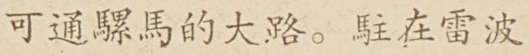可通騾馬的大路。駐在雷波
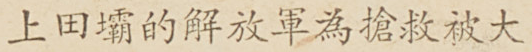上田壩的解放軍為搶救被大
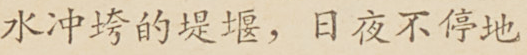水沖垮的堤堰，日夜不停地
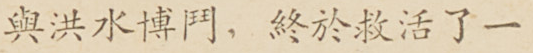與洪水搏鬥，終於救活了一
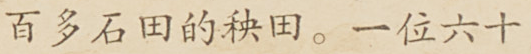百多石田的秧田。一位六十
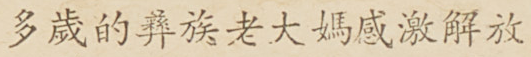多歲的彝族老大媽感激解放
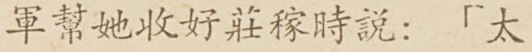軍幫她收好莊稼時說：「太
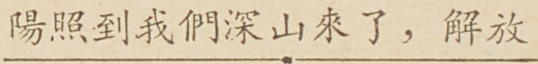陽照到我們深山來了，解放
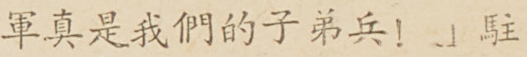軍真是我們的子弟兵！」駐
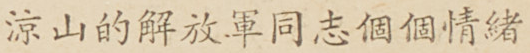涼山的解放軍同志個個情緒
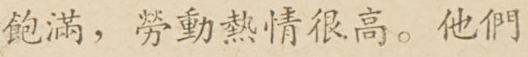飽滿，勞動熱情很高。他們
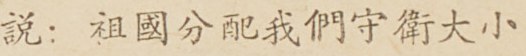說：祖國分配我們守衛大小
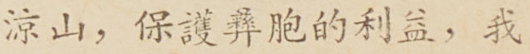涼山，保衛彝胞的利益，我
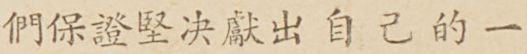們保證堅決獻出自己的一
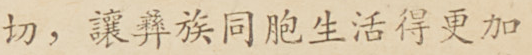切，讓彝族同胞生活得更加
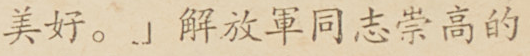美好。」解放軍同志崇高的
